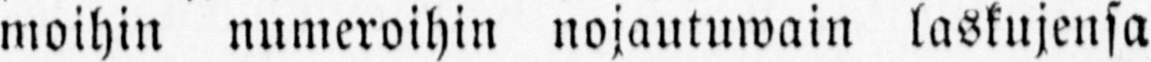moihin numeroihin nojautuwain laskujensa
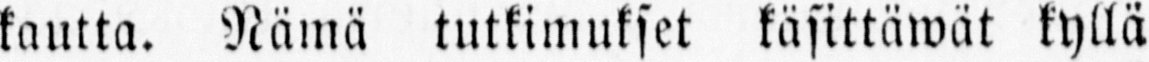kautta. Nämä tutkimukset käsittäwät kyllä
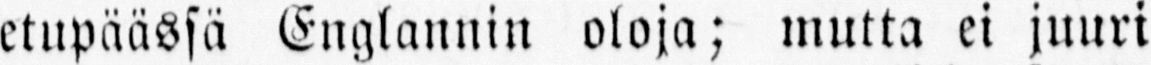etupäässä Englannin oloja; mutta ei juuri
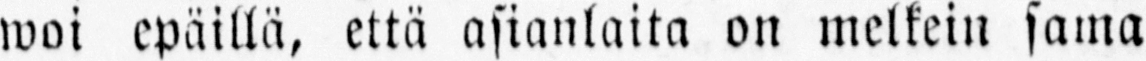woi epäillä, että asianlaita on melkein sama
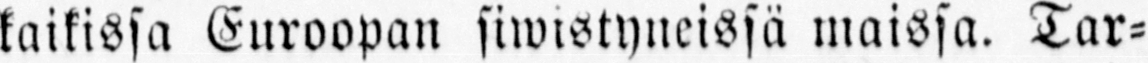kaikissa Euroopan siwistyneissä maissa. Tar-
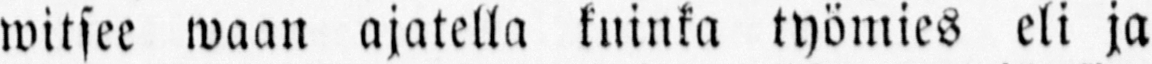witsee waan ajatella kuinka työmies eli ja
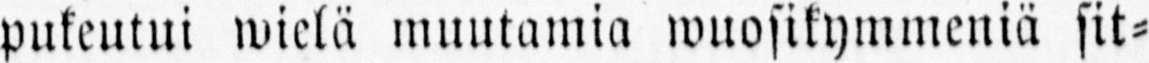pukeutui wielä muutamia wuosikymmeniä sit-
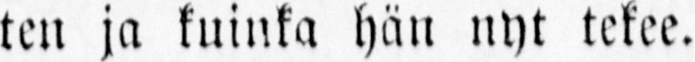ten ja kuinka hän nyt tekee.
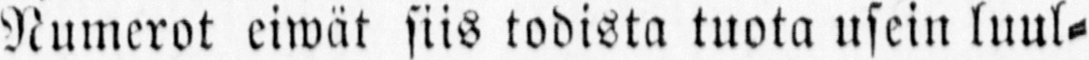Numerot eiwät siis todista tuota usein luul-
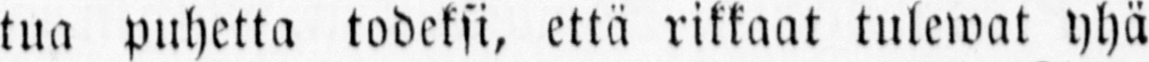tua puhetta todeksi, että rikkaat tulewat yhä
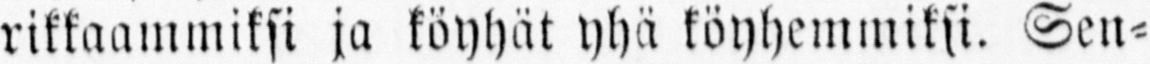rikkaammiksi ja köyhät yhä köyhemmiksi. Sen-
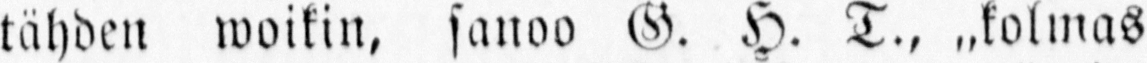tähden woikin, sanoo G. H. T., ˶kolmas
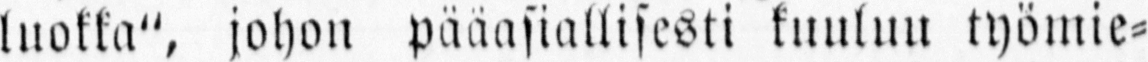luokka", johon pääasiallisesti kuuluu työmie-
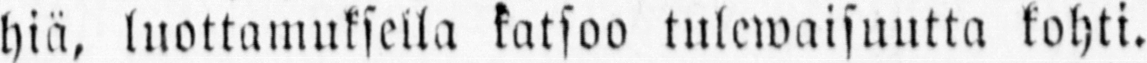hiä, luottamuksella katsoo tulewaisuutta kohti.
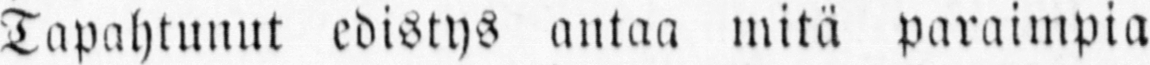Tapahtunut edistys antaa mitä paraimpia
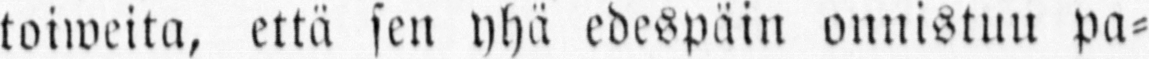toiweita, että sen yhä edespäin onnistuu pa-
